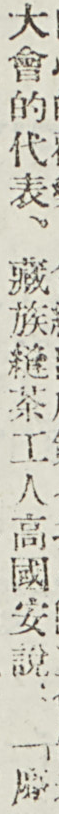大會的代表、藏族縫茶工人高國安說：「慶
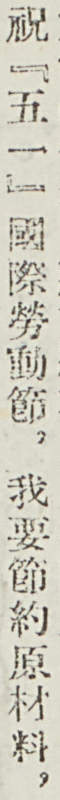祝『五一』國際勞動節，我要節約原材料，
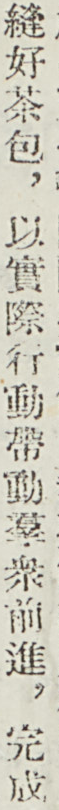縫好茶包，以實際行動帶動羣衆前進，完成
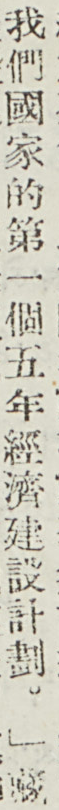我們國家的第一個五年經濟建設計劃。」藏
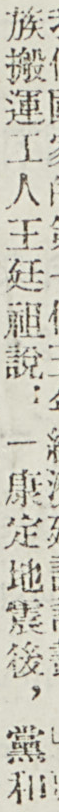族搬運工人王廷祖說：「康定地震後，黨和
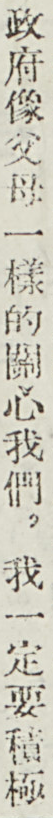政府像父母一樣的關心我們。我一定要積極
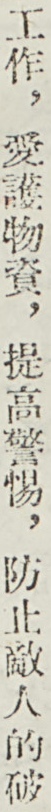工作，愛護物資，提高警惕，防止敵人的破
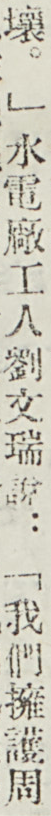壞。」水電廠工人劉文瑞說：「我們擁護周
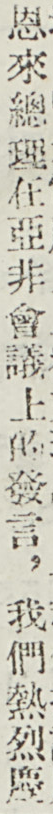恩來總理在亞非會議上的發言，我們熱烈慶
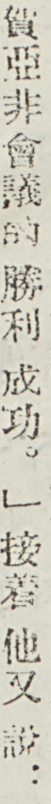賀亞非會議的勝利成功。」接着他又說：
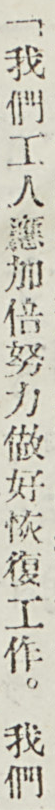「我們工人應加倍努力做好恢復工作。我們
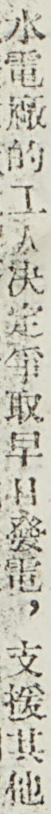水電廠的工人決定爭取早日發電，支援其他
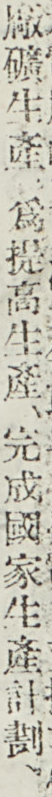廠礦生產，爲提高生產、完成國家生產計劃、
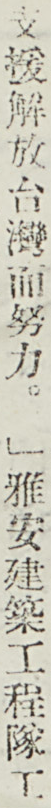支援解放台灣而努力。」雅安建築工程隊工
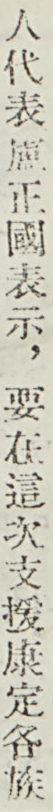人代表盧正國表示，要在這次支援康定各族
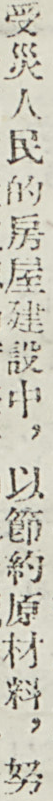受災人民的房屋建設中，以節約原材料，努
